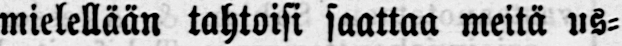mielellään tahtoisi saattaa meitä us-
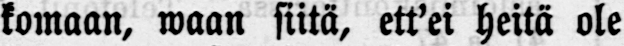koinaan, waan siitä, ett’ei heitä ole
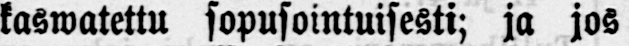kaswatettu sopusointuisesti; ja jos
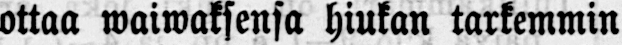ottaa waiwaksensa hiukan tarkemmin
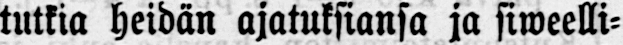tutkia heidän ajatuksiansa ja siweelli-
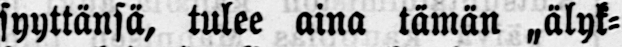syyttänsä, tulee aina tämän „älyk-
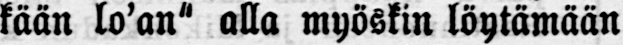kään lo’an" alla myöskin löytämään
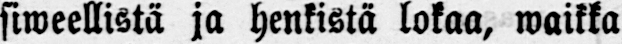siweellistä ja henkistä lokaa, waikka
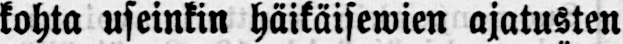kohta useinkin häikäisewien ajatusten
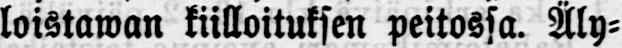loistawan kiilloituksen peitossa. Äly-
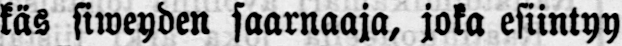käs siweyden saarnaaja, joka esiintyy
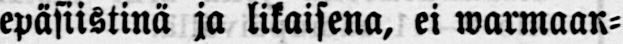epäsiistinä ja likaisena, ei warmaan-
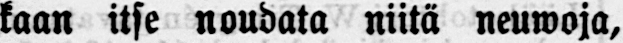kaan itse noudata niitä neuwoja,
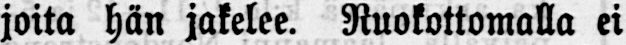joita hän jakelee. Ruokottomalla ei
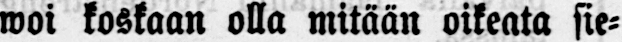woi koskaan olla mitään oikeata sie-
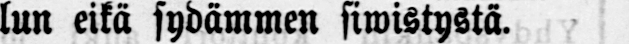lun eikä sydämmen siwistystä.
